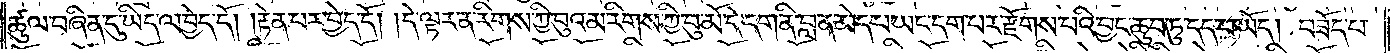ཚུལ་བཞིན་དུ་ཡིད་ལ་བྱེད་དོ། །རྟེན་པར་བྱེད་དོ། །དེ་ལྟར་ན་རིགས་ཀྱི་བུ་འམ་རིགས་ཀྱི་བུ་མོ་དེ་དག་ནི་བླ་ན་མེད་པ་ཡང་དག་པར་རྫོགས་པའི་བྱང་ཆུབ་ཏུ་དད་པ་ཡོད། བཟོད་པ་
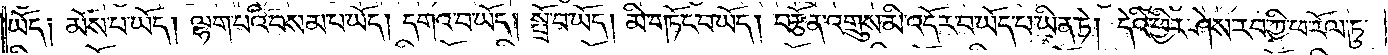ཡོད། མོས་པ་ཡོད། ལྷག་པའི་བསམ་པ་ཡོད། དགའ་བ་ཡོད། སྤྲོ་བ་ཡོད། མི་གཏོང་བ་ཡོད། བརྩོན་འགྲུས་མི་འདོར་བ་ཡོད་པ་ཡིན་ཏེ། དེའི་ཕྱིར་ཤེས་རབ་ཀྱི་ཕ་རོལ་ཏུ་
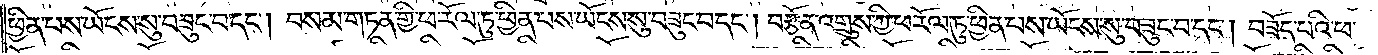ཕྱིན་པས་ཡོངས་སུ་བཟུང་བ་དང༌། བསམ་གཏན་གྱི་ཕ་རོལ་ཏུ་ཕྱིན་པས་ཡོངས་སུ་བཟུང་བ་དང༌། བརྩོན་འགྲུས་ཀྱི་ཕ་རོལ་ཏུ་ཕྱིན་པས་ཡོངས་སུ་བཟུང་བ་དང༌། བཟོད་པའི་ཕ་
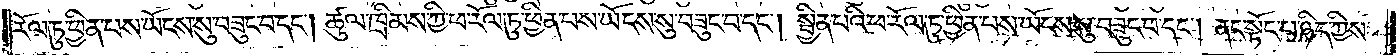རོལ་ཏུ་ཕྱིན་པས་ཡོངས་སུ་བཟུང་བ་དང༌། ཚུལ་ཁྲིམས་ཀྱི་ཕ་རོལ་ཏུ་ཕྱིན་པས་ཡོངས་སུ་བཟུང་བ་དང༌། སྦྱིན་པའི་ཕ་རོལ་ཏུ་ཕྱིན་པས་ཡོངས་སུ་བཟུང་བ་དང༌། ནང་སྟོང་པ་ཉིད་ཀྱིས་
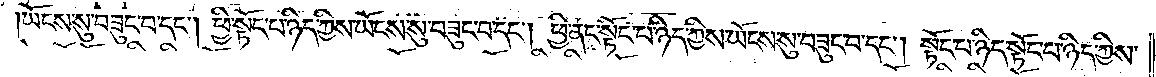ཡོངས་སུ་བཟུང་བ་དང༌། ཕྱི་སྟོང་པ་ཉིད་ཀྱིས་ཡོངས་སུ་བཟུང་བ་དང༌། ཕྱི་ནང་སྟོང་པ་ཉིད་ཀྱིས་ཡོངས་སུ་བཟུང་བ་དང༌། སྟོང་པ་ཉིད་སྟོང་པ་ཉིད་ཀྱིས་
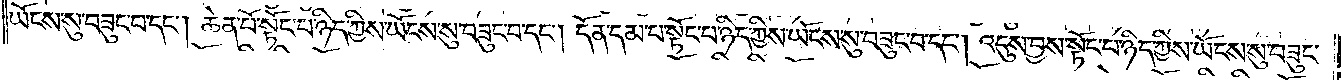ཡོངས་སུ་བཟུང་བ་དང༌། ཆེན་པོ་སྟོང་པ་ཉིད་ཀྱིས་ཡོངས་སུ་བཟུང་བ་དང༌། དོན་དམ་པ་སྟོང་པ་ཉིད་ཀྱིས་ཡོངས་སུ་བཟུང་བ་དང༌། འདུས་བྱས་སྟོང་པ་ཉིད་ཀྱིས་ཡོངས་སུ་བཟུང་
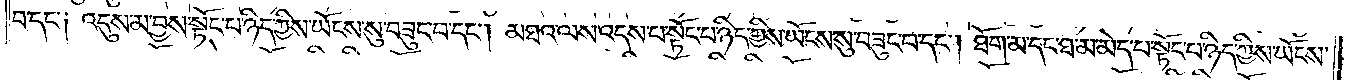བ་དང༌། འདུས་མ་བྱས་སྟོང་པ་ཉིད་ཀྱིས་ཡོངས་སུ་བཟུང་བ་དང༌། མཐའ་ལས་འདས་པ་སྟོང་པ་ཉིད་ཀྱིས་ཡོངས་སུ་བཟུང་བ་དང༌། ཐོག་མ་དང་ཐ་མ་མེད་པ་སྟོང་པ་ཉིད་ཀྱིས་ཡོངས་
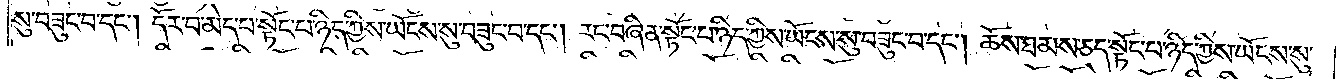སུ་བཟུང་བ་དང༌། དོར་བ་མེད་པ་སྟོང་པ་ཉིད་ཀྱིས་ཡོངས་སུ་བཟུང་བ་དང༌། རང་བཞིན་སྟོང་པ་ཉིད་ཀྱིས་ཡོངས་སུ་བཟུང་བ་དང༌། ཆོས་ཐམས་ཅད་སྟོང་པ་ཉིད་ཀྱིས་ཡོངས་སུ་
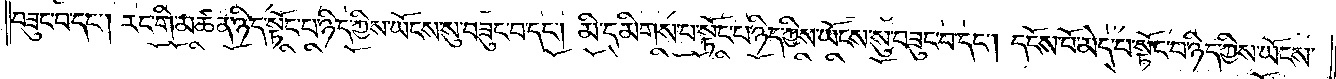བཟུང་བ་དང༌། རང་གི་མཚན་ཉིད་སྟོང་པ་ཉིད་ཀྱིས་ཡོངས་སུ་བཟུང་བ་དང༌། མི་དམིགས་པ་སྟོང་པ་ཉིད་ཀྱིས་ཡོངས་སུ་བཟུང་བ་དང༌། དངོས་པོ་མེད་པ་སྟོང་པ་ཉིད་ཀྱིས་ཡོངས་
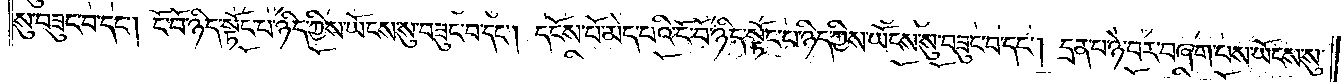སུ་བཟུང་བ་དང༌། ངོ་བོ་ཉིད་སྟོང་པ་ཉིད་ཀྱིས་ཡོངས་སུ་བཟུང་བ་དང༌། དངོས་པོ་མེད་པའི་ངོ་བོ་ཉིད་སྟོང་པ་ཉིད་ཀྱིས་ཡོངས་སུ་བཟུང་བ་དང༌། དྲན་པ་ཉེ་བར་བཞག་པས་ཡོངས་སུ་
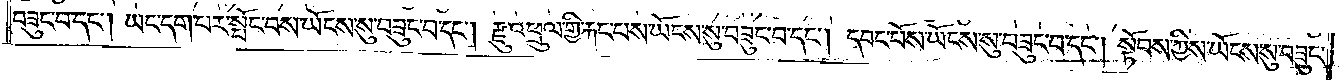བཟུང་བ་དང༌། ཡང་དག་པར་སྤོང་བས་ཡོངས་སུ་བཟུང་བ་དང༌། རྫུ་འཕྲུལ་གྱི་རྐང་པས་ཡོངས་སུ་བཟུང་བ་དང༌། དབང་པོས་ཡོངས་སུ་བཟུང་བ་དང༌། སྟོབས་ཀྱིས་ཡོངས་སུ་བཟུང་
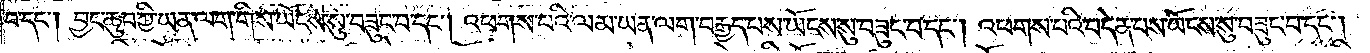བ་དང༌། བྱང་ཆུབ་ཀྱི་ཡན་ལག་གིས་ཡོངས་སུ་བཟུང་བ་དང༌། འཕགས་པའི་ལམ་ཡན་ལག་བརྒྱད་པས་ཡོངས་སུ་བཟུང་བ་དང༌། འཕགས་པའི་བདེན་པས་ཡོངས་སུ་བཟུང་བ་དང༌།
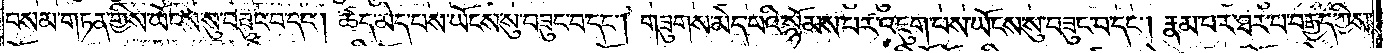བསམ་གཏན་གྱིས་ཡོངས་སུ་བཟུང་བ་དང༌། ཚད་མེད་པས་ཡོངས་སུ་བཟུང་བ་དང༌། གཟུགས་མེད་པའི་སྙོམས་པར་འཇུག་པས་ཡོངས་སུ་བཟུང་བ་དང༌། རྣམ་པར་ཐར་པ་བརྒྱད་ཀྱིས་
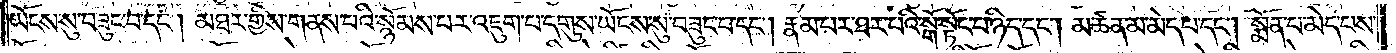ཡོངས་སུ་བཟུང་བ་དང༌། མཐར་གྱིས་གནས་པའི་སྙོམས་པར་འཇུག་པ་དགུས་ཡོངས་སུ་བཟུང་བ་དང༌། རྣམ་པར་ཐར་པའི་སྒོ་སྟོང་པ་ཉིད་དང༌། མཚན་མ་མེད་པ་དང༌། སྨོན་པ་མེད་པས་
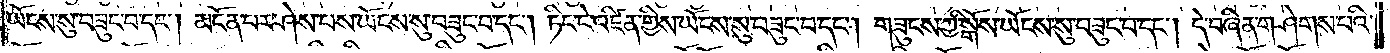ཡོངས་སུ་བཟུང་བ་དང༌། མངོན་པར་ཤེས་པས་ཡོངས་སུ་བཟུང་བ་དང༌། ཏིང་ངེ་འཛིན་གྱིས་ཡོངས་སུ་བཟུང་བ་དང༌། གཟུངས་ཀྱི་སྒོས་ཡོངས་སུ་བཟུང་བ་དང༌། དེ་བཞིན་གཤེགས་པའི་
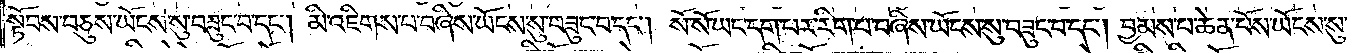སྟོབས་བཅུས་ཡོངས་སུ་བཟུང་བ་དང༌། མི་འཇིགས་པ་བཞིས་ཡོངས་སུ་བཟུང་བ་དང༌། སོ་སོ་ཡང་དག་པར་རིག་པ་བཞིས་ཡོངས་སུ་བཟུང་བ་དང༌། བྱམས་པ་ཆེན་པོས་ཡོངས་སུ་
